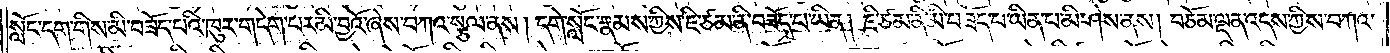སློང་དག་གིས་མི་བཟོད་པའི་ཁུར་གདེག་པར་མི་བྱའོ་ཞེས་བཀའ་སྩལ་ནས། དགེ་སློང་རྣམས་ཀྱིས་ཇི་ཙམ་ནི་བཟོད་པ་ཡིན། ཇི་ཙམ་ནི་མི་བཟོད་པ་ཡིན་པ་མི་ཤེས་ནས། བཅོམ་ལྡན་འདས་ཀྱིས་བཀའ་
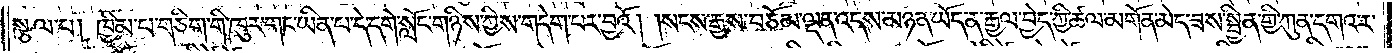སྩལ་པ། ཁྱིམ་པ་གཅིག་གི་ཁུར་གང་ཡིན་པ་དེ་དག་དགེ་སློང་གཉིས་ཀྱིས་གདེག་པར་བྱའོ། །སངས་རྒྱས་བཅོམ་ལྡན་འདས་མཉམ་ཡོད་ན་རྒྱལ་བྱེད་ཀྱི་ཚལ་མགོན་མེད་ཟས་སྦྱིན་གྱི་ཀུན་དགའ་ར་
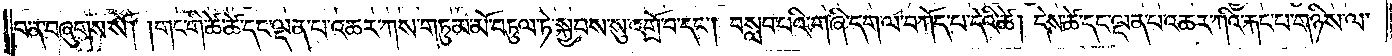བ་ན་བཞུགས་སོ། །གང་གི་ཚེ་ཚེ་དང་ལྡན་པ་འཆར་ཀས་གཏུམ་མོ་བཏུལ་ཏེ་སྐྱབས་སུ་འགྲོ་བ་དང༌། བསླབ་པའི་གཞི་དག་ལ་བཀོད་པ་དེའི་ཚེ། དེས་ཚེ་དང་ལྡན་པ་འཆར་ཀའི་རྐང་པ་གཉིས་ལ་
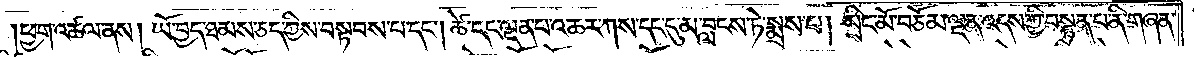ཕྱག་འཚལ་ནས། ཡོ་བྱད་ཐམས་ཅད་ཀྱིས་བསྟབས་པ་དང༌། ཚེ་དང་ལྡན་པ་འཆར་ཀས་དང་དུ་མ་བླངས་ཏེ་སྨྲས་པ། སྲིང་མོ་བཅོམ་ལྡན་འདས་ཀྱི་བསྟན་པ་ནི་གཞན་
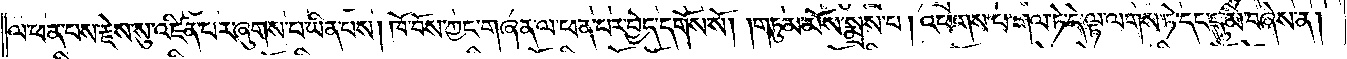ལ་ཕན་པས་རྗེས་སུ་འཛིན་པར་ཞུགས་པ་ཡིན་པས། ཁོ་བོས་ཀྱང་གཞན་ལ་ཕན་པར་བྱེད་དགོས་སོ། །གཏུམ་མོས་སྨྲས་པ། འཕགས་པ་གལ་ཏེ་དེ་ལྟ་ལགས་ཏེ་དང་དུ་མི་བཞེས་ན།
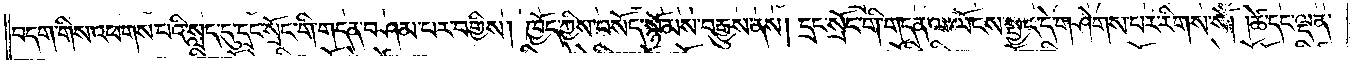བདག་གིས་འཕགས་པའི་སླད་དུ་དྲང་སྲོང་གི་གདན་བཤམ་པར་བགྱིས། ཁྱོད་ཀྱིས་བསོད་སྙོམས་བརྒྱུས་ནས། དྲང་སྲོང་གི་གདན་ལ་ལོངས་སྤྱད་དེ་གཤེགས་པར་རིགས་སོ། །ཚེ་དང་ལྡན་
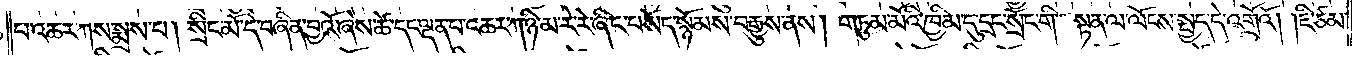པ་འཆར་ཀས་སྨྲས་པ། སྲིང་མོ་དེ་བཞིན་བྱའོ་ཞེས་ཚེ་དང་ལྡན་པ་འཆར་ཀ་ཉི་མ་རེ་རེ་ཞིང་བསོད་སྙོམས་བརྒྱུས་ནས། གཏུམ་མོའི་ཁྱིམ་དུ་དྲང་སྲོང་གི། སྟན་ལ་ལོངས་སྤྱད་དེ་འགྲོའོ། །ཇི་ཙམ་
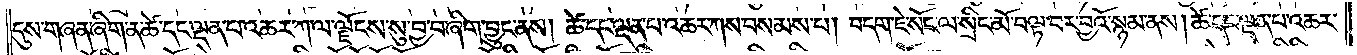དུས་གཞན་ཞིག་ན་ཚེ་དང་ལྡན་པ་འཆར་ཀ་ལ་ལྗོངས་སུ་བྱ་བ་ཞིག་བྱུང་ནས། ཚེ་དང་ལྡན་པ་འཆར་ཀས་བསམས་པ། བདག་ཇེ་སོང་ལ་སྲིང་མོ་བལྟ་བར་བྱའོ་སྙམ་ནས། ཚེ་དང་ལྡན་པ་འཆར་
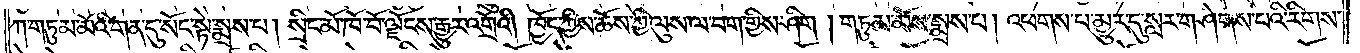ཀ་གཏུམ་མོའི་གན་དུ་སོང་སྟེ་སྨྲས་པ། སྲིང་མོ་ཁོ་བོ་ལྗོངས་རྒྱུར་འགྲོའི། །ཁྱོད་ཀྱིས་ཆོས་ཀྱི་ལུས་ལ་བག་གྱིས་ཤིག །གཏུམ་མོས་སྨྲས་པ། འཕགས་པ་མྱུར་དུ་སླར་གཤེགས་པའི་རིགས་
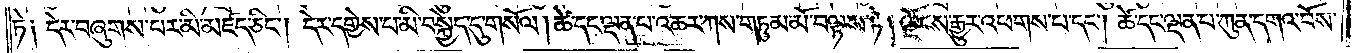ཏེ༑ དེར་བཞུགས་པར་མི་མཛད་ཅིང༌། དེར་དགྱེས་པ་མི་བསྐྱེད་དུ་གསོལ། ཚེ་དང་ལྡན་པ་འཆར་ཀས་གཏུམ་མོ་བལྟས་ཏེ། ལྗོངས་རྒྱུར་འཕགས་པ་དང༌། ཚེ་དང་ལྡན་པ་ཀུན་དགའ་བོས་
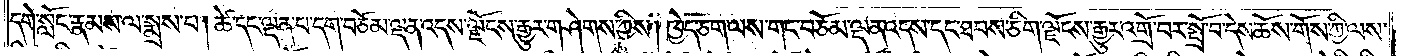དགེ་སློང་རྣམས་ལ་སྨྲས་པ། ཚེ་དང་ལྡན་པ་དག་བཅོམ་ལྡན་འདས་ལྗོངས་རྒྱུར་གཤེགས་ཀྱིས། ཁྱེད་ཅག་ལས་གང་བཅོམ་ལྡན་འདས་དང་ཐབས་ཅིག་ལྗོངས་རྒྱུར་འགྲོ་བར་སྤྲོ་བ་དེས་ཆོས་གོས་ཀྱི་ལས་
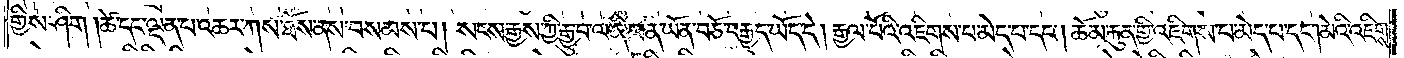གྱིས་ཤིག །ཚེ་དང་ལྡན་པ་འཆར་ཀས་ཐོས་ནས་བསམས་པ། སངས་རྒྱས་ཀྱི་རྒྱུ་བ་ལ་ནི་ཕན་ཡོན་བཅོ་བརྒྱད་ཡོད་དེ། རྒྱལ་པོའི་འཇིགས་པ་མེད་པ་དང༌། ཆོམ་རྐུན་གྱི་འཇིགས་པ་མེད་པ་དང༌། མེའི་འཇིགས་
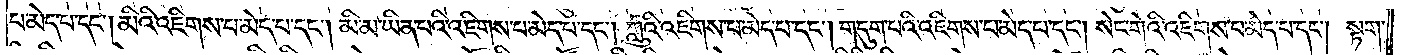པ་མེད་པ་དང༌། མིའི་འཇིགས་པ་མེད་པ་དང༌། མི་མ་ཡིན་པའི་འཇིགས་པ་མེད་པ་དང༌། ཀླུའི་འཇིགས་པ་མེད་པ་དང༌། གདུག་པའི་འཇིགས་པ་མེད་པ་དང༌། སེང་གེའི་འཇིགས་པ་མེད་པ་དང༌། སྟག་
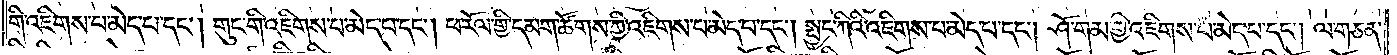གི་འཇིགས་པ་མེད་པ་དང༌། གུང་གི་འཇིགས་པ་མེད་པ་དང༌། ཕ་རོལ་གྱི་དམག་ཚོགས་ཀྱི་འཇིགས་པ་མེད་པ་དང༌། སྤྱང་ཀིའི་འཇིགས་པ་མེད་པ་དང༌། ཤོ་གམ་གྱི་འཇིགས་པ་མེད་པ་དང༌། ལ་གཅན་
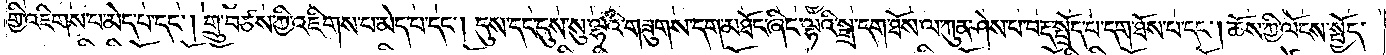གྱི་འཇིགས་པ་མེད་པ་དང༌། གྲུ་བཙས་ཀྱི་འཇིགས་པ་མེད་པ་དང༌། དུས་དང་དུས་སུ་ལྷའི་གཟུགས་དག་མཐོང་ཞིང་ལྷའི་སྒྲ་དག་ཐོས་ལ་ཀུན་ཤེས་པ་བརྡ་སྤྲོད་པ་དག་ཐོས་པ་དང༌། ཆོས་ཀྱི་ལོངས་སྤྱོད་
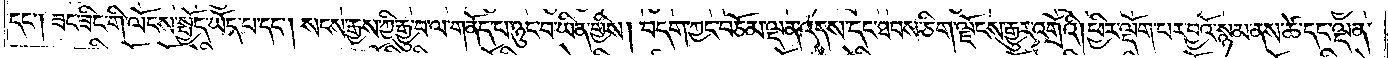དང༌། ཟང་ཟིང་གི་ལོངས་སྤྱོད་ཡོད་པ་དང༌། སངས་རྒྱས་ཀྱི་རྒྱུ་བ་ལ་གནོད་པ་ཉུང་བ་ཡིན་གྱིས། བདག་ཀྱང་བཅོམ་ལྡན་འདས་དང་ཐབས་ཅིག་ལྗོངས་རྒྱུར་འགྲོའི། ཕྱིར་ལྡོག་པར་བྱའོ་སྙམ་ནས་ཚེ་དང་ལྡན་
